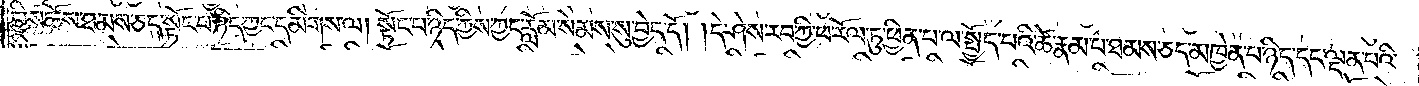གྱིས་ཆོས་ཐམས་ཅད་སྟོང་པ་ཉིད་ཀྱང་དམིགས་ལ། སྟོང་པ་ཉིད་ཀྱིས་ཀྱང་རློམ་སེམས་སུ་བྱེད་དོ། །དེ་ཤེས་རབ་ཀྱི་ཕ་རོལ་ཏུ་ཕྱིན་པ་ལ་སྤྱོད་པའི་ཚེ་རྣམ་པ་ཐམས་ཅད་མཁྱེན་པ་ཉིད་དང་ལྡན་པའི་
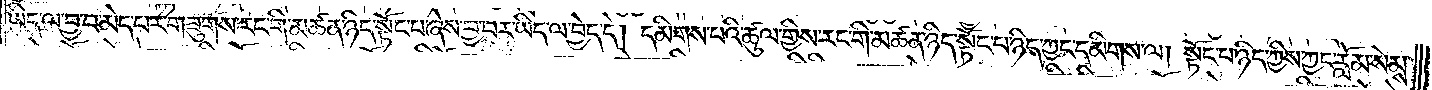ཡིད་ལ་བྱ་བ་མེད་པར་གཟུགས་རང་གི་མཚན་ཉིད་སྟོང་པ་ཞེས་བྱ་བར་ཡིད་ལ་བྱེད་དོ། དམིགས་པའི་ཚུལ་གྱིས་རང་གི་མཚན་ཉིད་སྟོང་པ་ཉིད་ཀྱང་དམིགས་ལ། སྟོང་པ་ཉིད་ཀྱིས་ཀྱང་རློམ་སེམས་
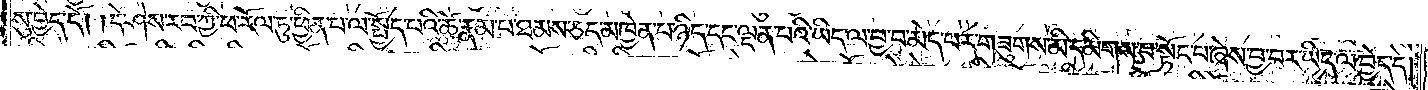སུ་བྱེད་དོ། །དེ་ཤེས་རབ་ཀྱི་ཕ་རོལ་ཏུ་ཕྱིན་པ་ལ་སྤྱོད་པའི་ཚེ་རྣམ་པ་ཐམས་ཅད་མཁྱེན་པ་ཉིད་དང་ལྡན་པའི་ཡིད་ལ་བྱ་བ་མེད་པར་གཟུགས་མི་དམིགས་པ་སྟོང་པ་ཞེས་བྱ་བར་ཡིད་ལ་བྱེད་དེ།
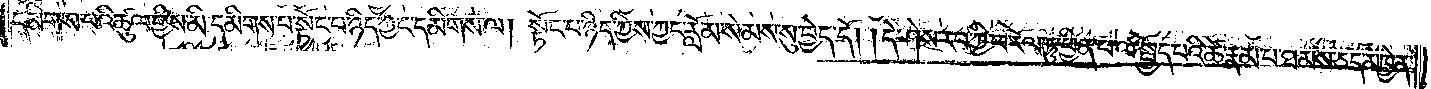དམིགས་པའི་ཚུལ་གྱིས་མི་དམིགས་པ་སྟོང་པ་ཉིད་ཀྱང་དམིགས་ལ། སྟོང་པ་ཉིད་ཀྱིས་ཀྱང་རློམ་སེམས་སུ་བྱེད་དོ། །དེ་ཤེས་རབ་ཀྱི་ཕ་རོལ་ཏུ་ཕྱིན་པ་ལ་སྤྱོད་པའི་ཚེ་རྣམ་པ་ཐམས་ཅད་མཁྱེན་
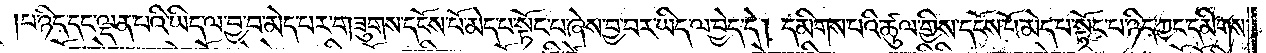པ་ཉིད་དང་ལྡན་པའི་ཡིད་ལ་བྱ་བ་མེད་པར་གཟུགས་དངོས་པོ་མེད་པ་སྟོང་པ་ཞེས་བྱ་བར་ཡིད་ལ་བྱེད་དེ། དམིགས་པའི་ཚུལ་གྱིས་དངོས་པོ་མེད་པ་སྟོང་པ་ཉིད་ཀྱང་དམིགས་
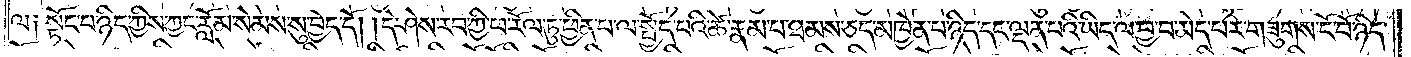ལ༑ སྟོང་པ་ཉིད་ཀྱིས་ཀྱང་རློམ་སེམས་སུ་བྱེད་དོ། །དེ་ཤེས་རབ་ཀྱི་ཕ་རོལ་ཏུ་ཕྱིན་པ་ལ་སྤྱོད་པའི་ཚེ་རྣམ་པ་ཐམས་ཅད་མཁྱེན་པ་ཉིད་དང་ལྡན་པའི་ཡིད་ལ་བྱ་བ་མེད་པར་གཟུགས་ངོ་བོ་ཉིད་
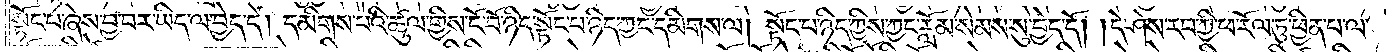སྟོང་པ་ཞེས་བྱ་བར་ཡིད་ལ་བྱེད་དེ། དམིགས་པའི་ཚུལ་གྱིས་ངོ་བོ་ཉིད་སྟོང་པ་ཉིད་ཀྱང་དམིགས་ལ། སྟོང་པ་ཉིད་ཀྱིས་ཀྱང་རློམ་སེམས་སུ་བྱེད་དོ། །དེ་ཤེས་རབ་ཀྱི་ཕ་རོལ་ཏུ་ཕྱིན་པ་ལ་
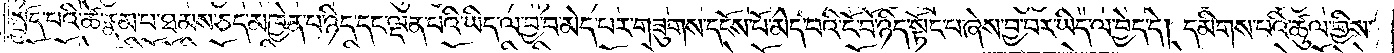སྤྱོད་པའི་ཚེ་རྣམ་པ་ཐམས་ཅད་མཁྱེན་པ་ཉིད་དང་ལྡན་པའི་ཡིད་ལ་བྱ་བ་མེད་པར་གཟུགས་དངོས་པོ་མེད་པའི་ངོ་བོ་ཉིད་སྟོང་པ་ཞེས་བྱ་བར་ཡིད་ལ་བྱེད་དེ། དམིགས་པའི་ཚུལ་གྱིས་
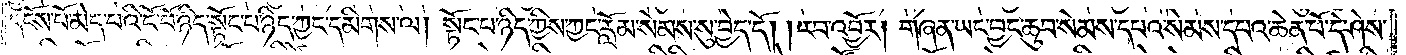དངོས་པོ་མེད་པའི་ངོ་བོ་ཉིད་སྟོང་པ་ཉིད་ཀྱང་དམིགས་ལ། སྟོང་པ་ཉིད་ཀྱིས་ཀྱང་རློམ་སེམས་སུ་བྱེད་དོ། །རབ་འབྱོར། གཞན་ཡང་བྱང་ཆུབ་སེམས་དཔའ་སེམས་དཔའ་ཆེན་པོ་དེ་ཤེས་
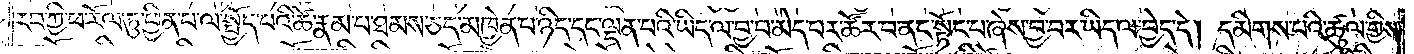རབ་ཀྱི་ཕ་རོལ་ཏུ་ཕྱིན་པ་ལ་སྤྱོད་པའི་ཚེ་རྣམ་པ་ཐམས་ཅད་མཁྱེན་པ་ཉིད་དང་ལྡན་པའི་ཡིད་ལ་བྱ་བ་མེད་པར་ཚོར་བ་ནང་སྟོང་པ་ཞེས་བྱ་བར་ཡིད་ལ་བྱེད་དེ། དམིགས་པའི་ཚུལ་གྱིས་
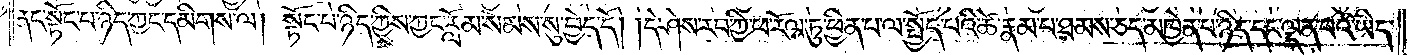ནང་སྟོང་པ་ཉིད་ཀྱང་དམིགས་ལ། སྟོང་པ་ཉིད་ཀྱིས་ཀྱང་རློམ་སེམས་སུ་བྱེད་དོ། །དེ་ཤེས་རབ་ཀྱི་ཕ་རོལ་ཏུ་ཕྱིན་པ་ལ་སྤྱོད་པའི་ཚེ་རྣམ་པ་ཐམས་ཅད་མཁྱེན་པ་ཉིད་དང་ལྡན་པའི་ཡིད་
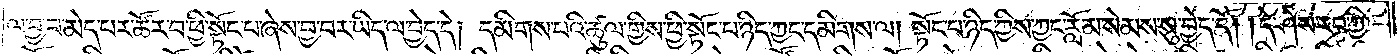ལ་བྱ་བ་མེད་པར་ཚོར་བ་ཕྱི་སྟོང་པ་ཞེས་བྱ་བར་ཡིད་ལ་བྱེད་དེ། དམིགས་པའི་ཚུལ་གྱིས་ཕྱི་སྟོང་པ་ཉིད་ཀྱང་དམིགས་ལ། སྟོང་པ་ཉིད་ཀྱིས་ཀྱང་རློམ་སེམས་སུ་བྱེད་དོ། །དེ་ཤེས་རབ་ཀྱི་
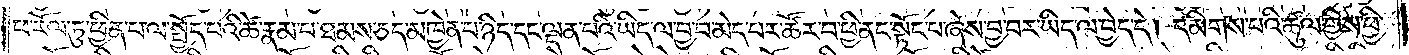ཕ་རོལ་ཏུ་ཕྱིན་པ་ལ་སྤྱོད་པའི་ཚེ་རྣམ་པ་ཐམས་ཅད་མཁྱེན་པ་ཉིད་དང་ལྡན་པའི་ཡིད་ལ་བྱ་བ་མེད་པར་ཚོར་བ་ཕྱི་ནང་སྟོང་པ་ཞེས་བྱ་བར་ཡིད་ལ་བྱེད་དེ། དམིགས་པའི་ཚུལ་གྱིས་ཕྱི་
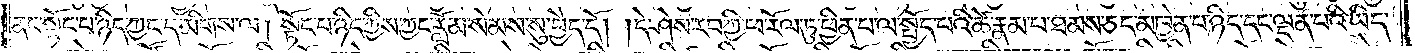ནང་སྟོང་པ་ཉིད་ཀྱང་དམིགས་ལ། སྟོང་པ་ཉིད་ཀྱིས་ཀྱང་རློམ་སེམས་སུ་བྱེད་དོ། །དེ་ཤེས་རབ་ཀྱི་ཕ་རོལ་ཏུ་ཕྱིན་པ་ལ་སྤྱོད་པའི་ཚེ་རྣམ་པ་ཐམས་ཅད་མཁྱེན་པ་ཉིད་དང་ལྡན་པའི་ཡིད་
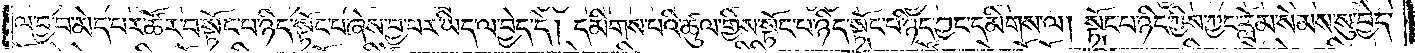ལ་བྱ་བ་མེད་པར་ཚོར་བ་སྟོང་པ་ཉིད་སྟོང་པ་ཞེས་བྱ་བར་ཡིད་ལ་བྱེད་དེ། དམིགས་པའི་ཚུལ་གྱིས་སྟོང་པ་ཉིད་སྟོང་པ་ཉིད་ཀྱང་དམིགས་ལ། སྟོང་པ་ཉིད་ཀྱིས་ཀྱང་རློམ་སེམས་སུ་བྱེད་
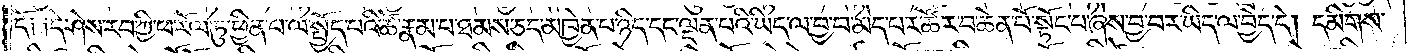དོ༑ ༑དེ་ཤེས་རབ་ཀྱི་ཕ་རོལ་ཏུ་ཕྱིན་པ་ལ་སྤྱོད་པའི་ཚེ་རྣམ་པ་ཐམས་ཅད་མཁྱེན་པ་ཉིད་དང་ལྡན་པའི་ཡིད་ལ་བྱ་བ་མེད་པར་ཚོར་བ་ཆེན་པོ་སྟོང་པ་ཞེས་བྱ་བར་ཡིད་ལ་བྱེད་དེ། དམིགས་
